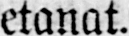etanat.
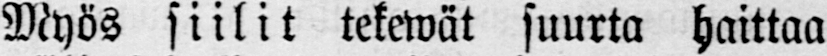Myös siilit tekewät suurta haittaa
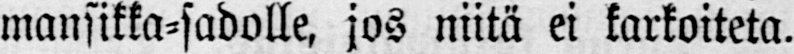mansikka-sadolle, jos niitä ei karkoiteta.
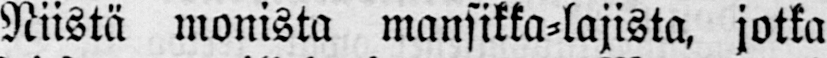Niistä monista mansikka-lajista, jotka
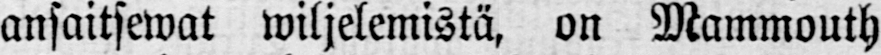ansaitsewat wiljelemistä, on Mammouth
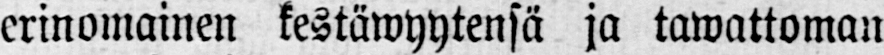erinomainen kestäwyytensä ja tawattoman
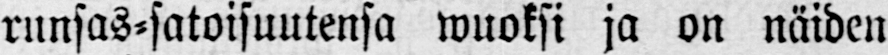runsas-satoisuutensa wuoksi ja on näiden
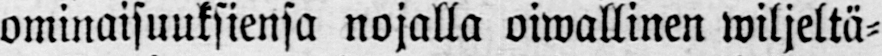ominaisuuksiensa nojalla oiwallinen wiljeltä-
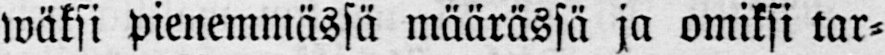wäksi pienemmässä määrässä ja omiksi tar-
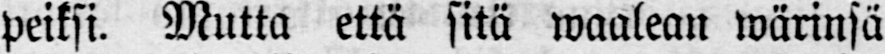peiksi. Mutta että sitä waalean wärinsä
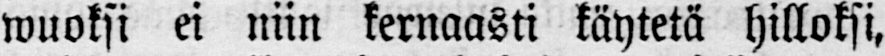wuoksi ei niin kernaasti käytetä hilloksi,
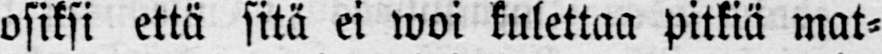osiksi että sitä ei woi kulettaa pitkiä mat-
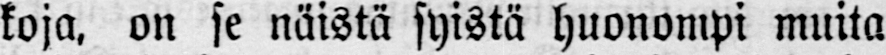koja, on se näistä syistä huonompi muita
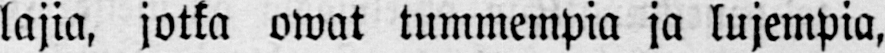lajia, jotka owat tummempia ja lujempia,
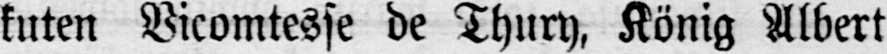kuten Vicomtesse de Thury, König Albert
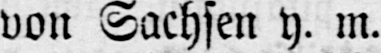von Sachsen y. m.
